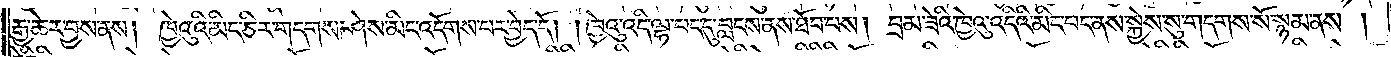རྒྱ་ཆེར་བྱས་ནས། ཁྱེའུའི་མིང་ཅིར་གདགས་ཤེས་མིང་འདོགས་པར་བྱེད་དོ། །ཁྱེའུ་འདི་ལྷ་པང་དུ་བླངས་ནས་ཐོབ་པས། བྲམ་ཟེའི་ཁྱེའུ་འདིའི་མིང་བད་ནས་སྐྱེས་སུ་གདགས་སོ་སྙམ་ནས།
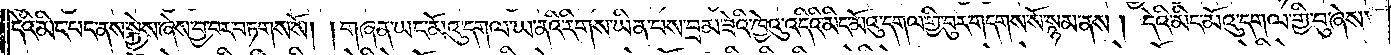དེའི་མིང་པང་ནས་སྐྱེས་ཞེས་བྱ་བར་བཏགས་སོ། །གཞན་ཡང་མོའུ་དགལ་ཡ་ནའི་རིགས་ཡིན་པས་བྲམ་ཟེའི་ཁྱེའུ་འདིའི་མིང་མོའུ་དགལ་གྱི་བུར་གདགས་སོ་སྙམ་ནས། དེའི་མིང་མོའུ་དགལ་གྱི་བུ་ཞེས་
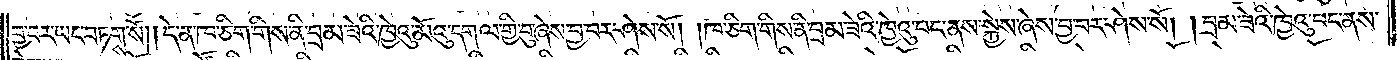བྱ་བར་ཡང་བཏགས་སོ། །དེ་ན་ཁ་ཅིག་གིས་ནི་བྲམ་ཟེའི་ཁྱེའུ་མོའུ་དགལ་གྱི་བུ་ཞེས་བྱ་བར་ཤེས་སོ། །ཁ་ཅིག་གིས་ནི་བྲམ་ཟེའི་ཁྱེའུ་བང་ནས་སྐྱེས་ཞེས་བྱ་བར་ཤེས་སོ། །བྲམ་ཟེའི་ཁྱེའུ་པང་ནས་
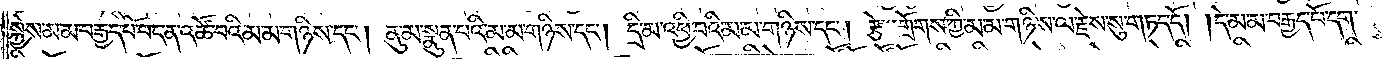སྐྱེས་མ་མ་བརྒྱད་པོ་པང་ན་འཚོ་བའི་མ་མ་གཉིས་དང༌། ནུ་མ་སྣུན་པའི་མ་མ་གཉིས་དང༌། དྲི་མ་འཕྱི་བའི་མ་མ་གཉིས་དང༌། རྩེ་གྲོགས་ཀྱི་མ་མ་གཉིས་ལ་རྗེས་སུ་གཏད་དོ། །དེ་མ་མ་བརྒྱད་པོ་དག་
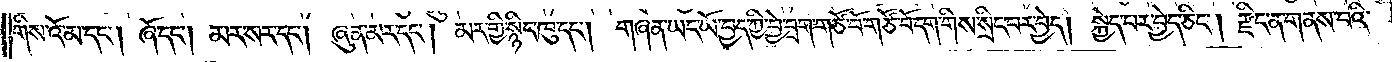གིས་འོ་མ་དང༌། ཞོ་དང༌། མར་སར་དང༌། ཞུན་མར་དང༌། མར་གྱི་སྙིང་ཁུ་དང༌། གཞན་ཡང་ཡོ་བྱད་ཀྱི་བྱེ་བྲག་གཙོ་བོ་གཙོ་བོ་དག་གིས་སྲིད་བར་བྱེད། སྐྱེད་པར་བྱེད་ཅིང༌། རྫིང་ན་གནས་པའི་
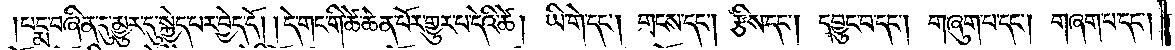པདྨ་བཞིན་དུ་མྱུར་དུ་སྐྱེད་པར་བྱེད་དོ། །དེ་གང་གི་ཚེ་ཆེན་པོར་གྱུར་པ་དེའི་ཚེ། ཡི་གེ་དང༌། གྲངས་དང༌། རྩིས་དང༌། དབྱུང་བ་དང༌། གཞུག་པ་དང༌། གཞག་པ་དང༌།
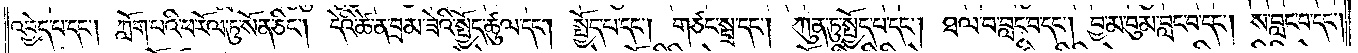འབྱེད་པ་དང༌། ཀློག་པའི་ཕ་རོལ་ཏུ་སོན་ཅིང༌། དེའི་ཚེ་ན་བྲམ་ཟེའི་སྤྱོད་ཚུལ་དང༌། སྤྱོད་པ་དང༌། གཙང་སྦྲ་དང༌། ཀུན་ཏུ་སྤྱོད་པ་དང༌། ཐལ་བ་བླང་བ་དང༌། བྱ་མ་བུམ་བླང་བ་དང༌། ས་བླང་བ་དང༌།
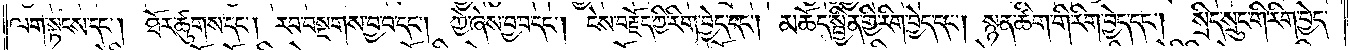ལག་སྟངས་དང༌། ཐོར་ཚུགས་དང༌། རབ་བསྔགས་བྱ་བ་དང༌། ཀྱེ་ཞེས་བྱ་བ་དང༌། ངེས་བརྗོད་ཀྱི་རིག་བྱེད་དང༌། མཆོད་སྦྱིན་གྱི་རིག་བྱེད་དང༌། སྙན་ཚིག་གི་རིག་བྱེད་དང༌། སྲིད་སྲུང་གི་རིག་བྱེད་
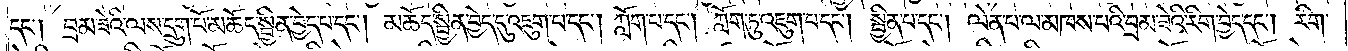དང༌། བྲམ་ཟེའི་ལས་དྲུག་པོ་མཆོད་སྦྱིན་བྱེད་པ་དང༌། མཆོད་སྦྱིན་བྱེད་དུ་འཇུག་པ་དང༌། ཀློག་པ་དང༌། ཀློག་ཏུ་འཇུག་པ་དང༌། སྦྱིན་པ་དང༌། ལེན་པ་ལ་མཁས་པའི་བྲམ་ཟེའི་རིག་བྱེད་དང༌། རིག་
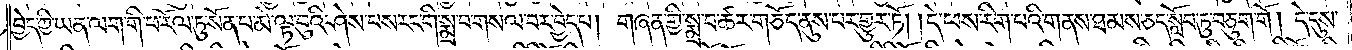བྱེད་ཀྱི་ཡན་ལག་གི་ཕ་རོལ་ཏུ་སོན་པ་མེ་ལྟ་བུའི་ཤེས་པས་རང་གི་སྨྲ་བ་གསལ་བར་བྱེད་པ། གཞན་གྱི་སྨྲ་བ་ཚར་གཅོད་ནུས་པར་གྱུར་ཏོ། །དེ་ཕས་རིག་པའི་གནས་ཐམས་ཅད་སློབ་ཏུ་བཅུག་གོ། ། དེ་དུས་
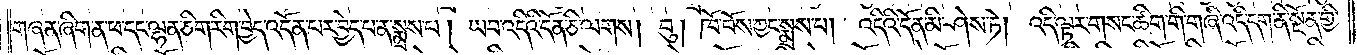གཞན་ཞིག་ན་ཕ་དང་ལྷན་ཅིག་རིག་བྱེད་འདོན་པར་བྱེད་པ་ན་སྨྲས་པ། ཡབ་འདིའི་དོན་ཅི་ལགས། བུ། ཁོ་བོས་ཀྱང་སྨྲས་པ། འདིའི་དོན་མི་ཤེས་ཏེ། འདི་ལྟར་གསང་ཚིག་གི་གཞི་འདི་དག་ནི་སྔོན་གྱི་
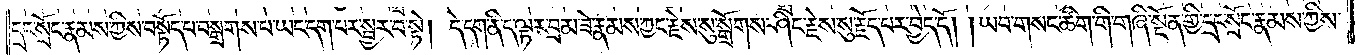དྲང་སྲོང་རྣམས་ཀྱིས་བསྟོད་པ་བསྒྲགས་པ་ཡང་དག་པར་སྦྱར་བ་སྟེ། དེ་དག་ནི་ད་ལྟར་བྲམ་ཟེ་རྣམས་ཀྱང་རྗེས་སུ་སྒྲོགས་ཤིང་རྗེས་སུ་རྗོད་པར་བྱེད་དོ། །ཡབ་གསང་ཚིག་གི་གཞི་སྔོན་གྱི་དྲང་སྲོང་རྣམས་ཀྱིས་
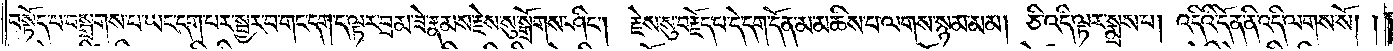བསྟོད་པ་བསྒྲགས་པ་ཡང་དག་པར་སྦྱར་བ་གང་དག་ད་ལྟར་བྲམ་ཟེ་རྣམས་རྗེས་སུ་སྒྲོགས་ཤིང༌། རྗེས་སུ་བརྗོད་པ་དེ་དག་དོན་མ་མཆིས་པ་ལགས་སྙམ་མམ། ཅི་འདི་ལྟར་སྨྲས་པ། འདིའི་དོན་ནི་འདི་ལགས་སོ། །
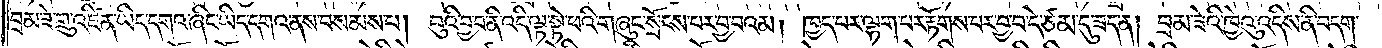བྲམ་ཟེ་གྲུ་འཛིན་ཡིད་དགའ་ཞིང་ཡིད་དགའ་ནས་བསམས་པ། བུའི་བྱ་བ་ནི་འདི་ལྟ་སྟེ་ཕའི་གཞུང་སྲོངས་པར་བྱ་བའམ། ཁྱད་པར་ལྷག་པར་རྟོགས་པར་བྱ་བ་དེ་ཙམ་དུ་ཟད་ན། བྲམ་ཟེའི་ཁྱེའུ་འདིས་ནི་བདག་
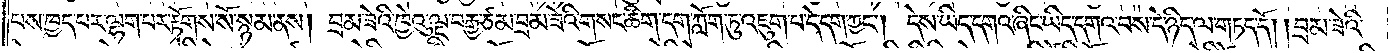པས་ཁྱད་པར་ལྷག་པར་རྟོགས་སོ་སྙམ་ནས། བྲམ་ཟེའི་ཁྱེའུ་ལྔ་བརྒྱ་ཙམ་བྲམ་ཟེའི་གསང་ཚིག་དག་ཀློག་ཏུ་འཇུག་པ་དེ་དག་ཀྱང༌། དེས་ཡིད་དགའ་ཞིང་ཡིད་དགའ་བས་དེ་ཉིད་ལ་གཏད་དོ། །བྲམ་ཟེའི་
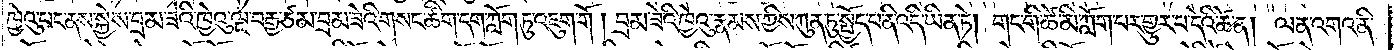ཁྱེའུ་པང་ནས་སྐྱེས་བྲམ་ཟེའི་ཁྱེའུ་ལྔ་བརྒྱ་ཙམ་བྲམ་ཟེའི་གསང་ཚིག་དག་ཀློག་ཏུ་འཇུག་གོ། བྲམ་ཟེའི་ཁྱེའུ་རྣམས་ཀྱིས་ཀུན་ཏུ་སྤྱོད་པ་ནི་འདི་ཡིན་ཏེ། གང་གི་ཚེ་མི་ཀློག་པར་གྱུར་པ་དེའི་ཚེ་ན། ལན་འགའ་ནི་
